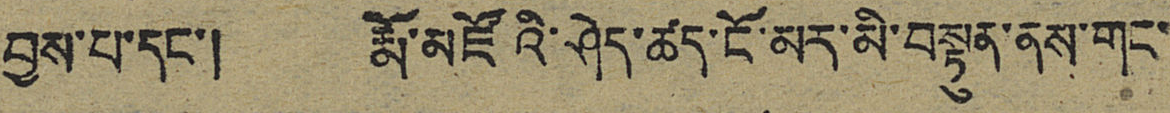བྱས་པ་དང་། རྨོ་མཛོའི་ཤེད་ཚད་ངོ་མར་མི་བསྟུན་ནས་གང་
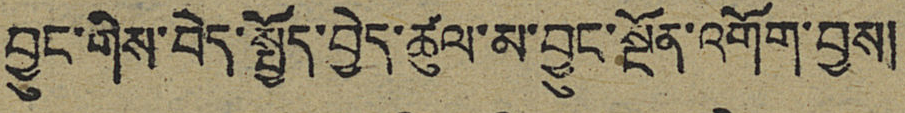བྱུང་གིས་བེད་སྤྱོད་བྱེད་ཚུལ་མ་བྱུང་སྔོན་འགོག་བྱས།
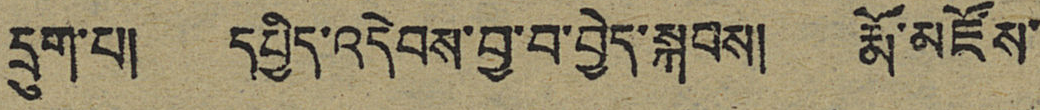དྲུག་པ། དཔྱིད་འདེབས་བྱ་བ་བྱེད་སྐབས། རྨོ་མཛོས་
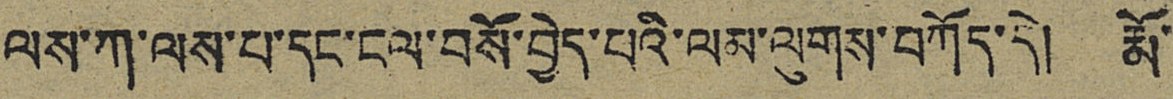ལས་ཀ་ལས་པ་དང་ངལ་བསོ་བྱེད་པའི་ལམ་ལུགས་བཀོད་དེ། རྨོ་
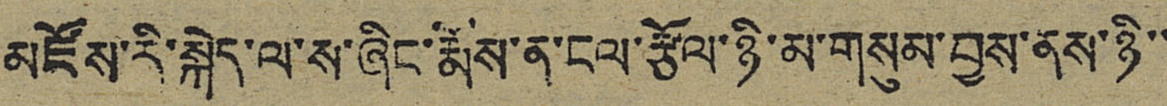མཛོས་རི་སྐེད་ལ་ས་ཞིང་རྨོས་ན་ངལ་རྩོལ་ཉི་མ་གསུམ་བྱས་ནས་ཉི་་
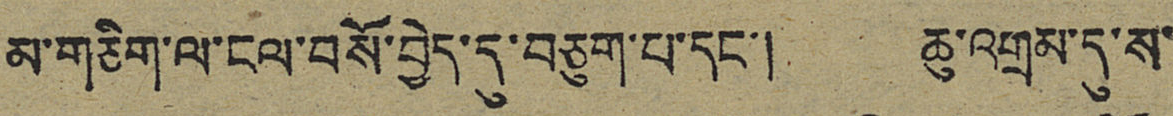མ་གཅིག་ལ་ངལ་བསོ་བྱེད་དུ་བཅུག་པ་དང་། ཆུ་འགྲམ་དུ་ས་
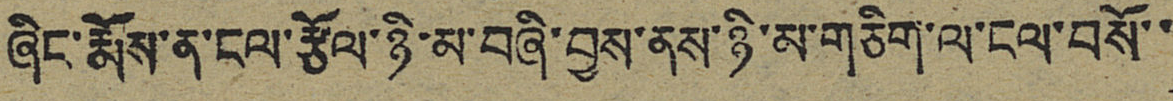ཞིང་རྨོས་ན་ང་རྩོལ་ཉི་མ་བཞི་བྱས་ནས་ཉི་མ་གཅིག་ལ་ངལ་བསོ་་
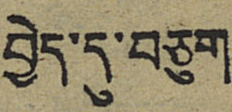བྱེད་དུ་བཅུག
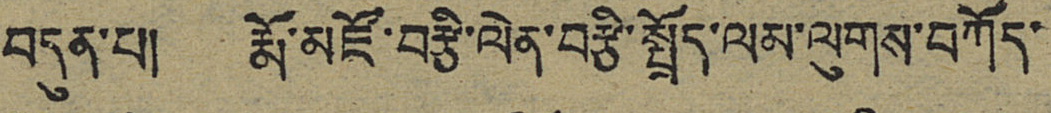བདུན་པ། རྨོ་མཛོ་བརྩི་ལེན་བརྩི་སྤྲོད་ལམ་ལུགས་བཀོད་
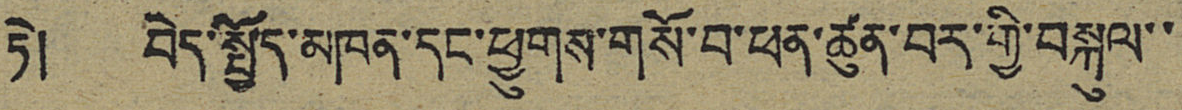ཏེ། བེད་སྤྱོད་མཁན་དང་ཕྱུགས་གསོ་བ་ཕན་ཚུན་བར་གྱི་བསྐུལ་་
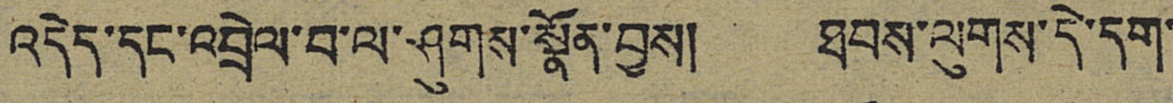འདེད་དང་འབྲེལ་བ་ལ་ཤུགས་སྣོན་བྱས། ཐབས་ལུགས་དེ་དག་
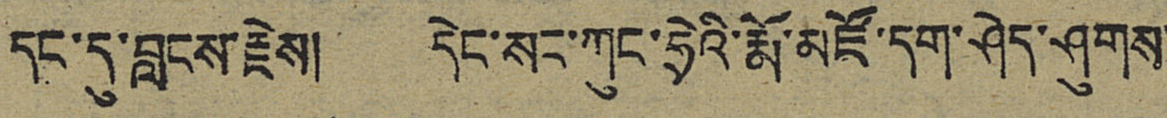དང་དུ་བླངས་རྗེས། དེང་སང་ཀུང་ཧྲེའི་རྨོ་མཛོ་དག་ཤེད་ཤུགས་
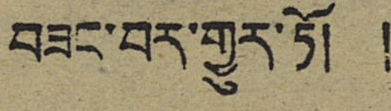བཟང་བར་གྱུར་ཏོ། །
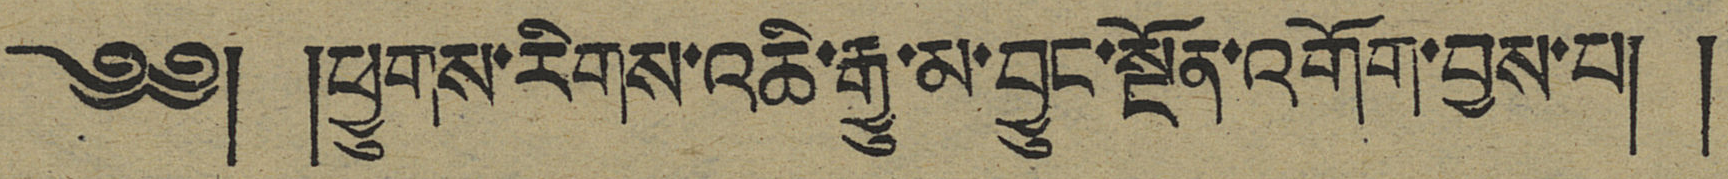༄༅། །ཕྱུགས་རིགས་འཆི་རྒྱུ་མ་བྱུང་སྔོན་འགོག་བྱས་པ། །
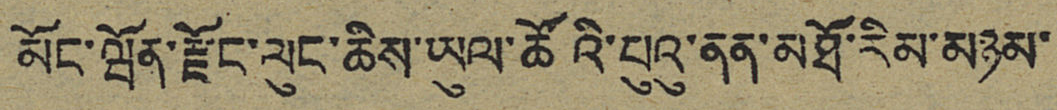མོང་ཝོན་རྫོང་ལུང་ཆིས་ཡུལ་ཚོའི་པུའུ་ནན་མཐོ་རིམ་མཉམ་
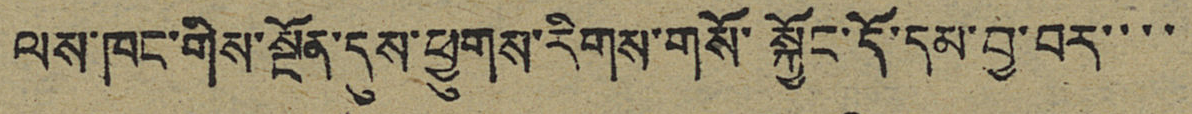ལས་ཁང་གིས་སྔོན་དུས་ཕྱུགས་རིགས་གསོ་སྐྱོང་དོ་དམ་བྱ་བར་་་་
